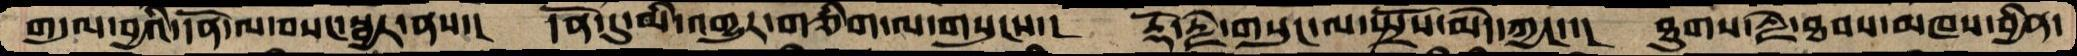གདུལ་བྱའི་དོན་ལ་བསང་སྦྱར་ནས་།  དོན་དུ་མི་འགྱུར་གཅིག་ལ་གསུངས་།  རྡོ་རྗེ་གསུང་ལ་སྤྲོས་མེད་ཀྱང་།  ཐུགས་རྗེ་ཐབས་མཁས་བྱིན་
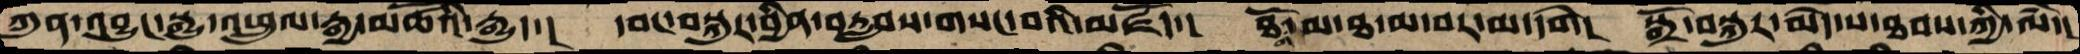ཀུན་འབྱུང་སྒྱུ་འཕྲུལ་རྒྱ་མཚོའི་རྒྱུད་། དབང་བསྐུར་བྱིན་བརླབས་གསང་བའི་མཛོད་། ཐོག་མ་ཐ་མ་བར་མ་དགེ། སྒྲོ་བསྐུར་མེད་པ་ཐབས་ཀྱི་ལཾ་།
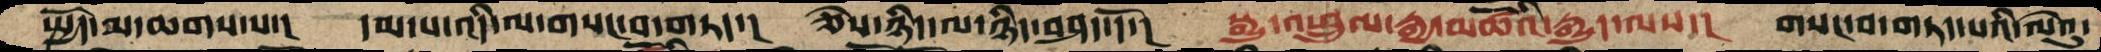སྤྱོད་མ་ཆགས་པ་།  དམ་པ་འདི་ལ་གསང་བ་གཏད་།  ཅེས་ཉིད་ལ་ཉིད་བཤད་དོ་།  སྒྱུ་འཕྲུལ་རྒྱ་མཚོའི་རྒྱུད་ལས་།  གསང་བ་གཏད་པའི་ལེའུ་
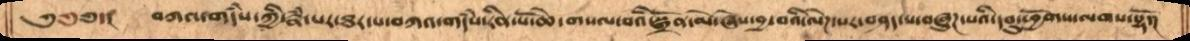༄༅༅་། བཀའ་གདཾས་ཀྱི་རྣཾ་པར་ཐར་པ་བཀའ་གདཾས་རིན་པོ་ཆེ་གསལ་བའི་སྒྲོན་མེ་ཞེས་བྱ་བའི་ལེགས་པར་བཤད་པ་བཞུཌ་པའི་དབུ་ཕྱོགས་ལགས་སྷོ་།
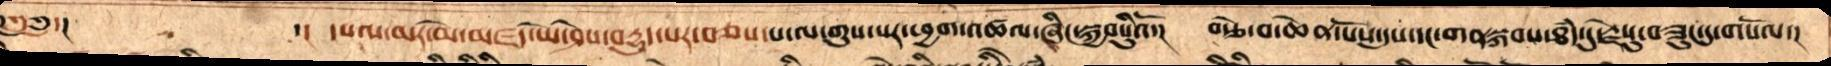༄༅་།  ་།  དཔལ་མར་མེ་མཛད་ཡེ་ཤེས་བདྱུད་པར་བཅས་པ་ལ་གུས་པར་ཕྱག་འཚལ་ཞིང་སྐྱབསིུའོ་། བརྩེ་བ་ཆེན་པོས་དུས་དང་གནསྐབས་ཐཾད་དུ་རྗེསུ་བཟུང་དུ་གསོལ་།
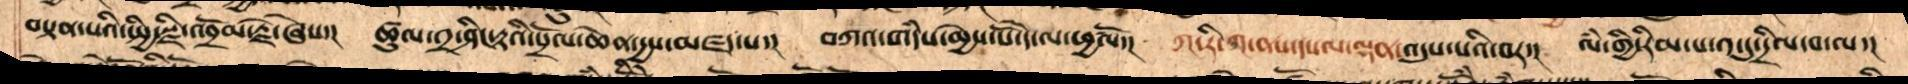བསྟན་པའི་སྤྱི་རྫི་འབྲོམ་རྗེ་ཞེས་། ཚུལ་༢་ཤིང་རྟའི་སྲོལ་ཆེན་དྱས་མཛད་པ་། བཀའ་གདཾས་མྱེས་པོ་དེ་ལ་ཕྱཚལོ་། ཀ་རི་ཀ་ནས་དཔལ་ལྡན་འདུས་པའི་བར་། ལཾ་གྱི་རིམ་པ་༡་ཏུ་དྲིལ་བ་ལ་།
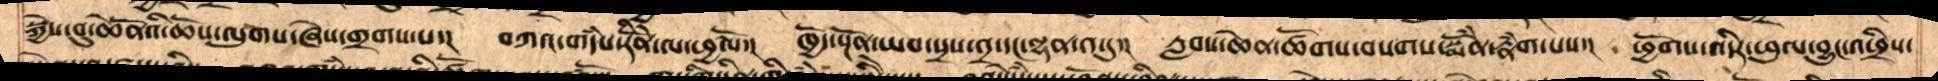སྐྱེས་བུ་ཆེནོའི་ཆོས་ལུགས་ཞེས་གྲགས་པ་། བཀའ་གདཾས་རིོནེ་ལ་ཕྱཚལོ་། ཁྱེད་སྔོན་ཡབ་སྲས་༢་དང་ལྷན་༡་དུ་།  རླབས་ཆེན་ཚོགས་བསགས་སྨོཾན་རྣཾག་པས་།  ཕྱོགས་འདིར་ཕུལ་བྱུང་འཕྲིས་
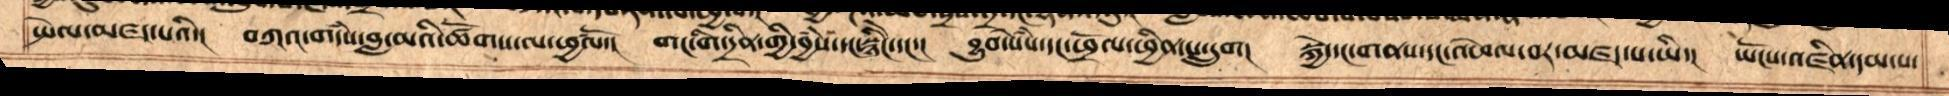སྤེལ་མཛད་པའི་། བཀའ་གདཾས་བླ་མའི་ཚོགས་ལ་ཕྱཚལོ་། གང་གི་དྲིན་གྱི་བྱཾས་དང་སྙིངེ་དང་། བྱང་ཆུབ་སེཾས་དང་ཕྲོལ་ཕྱིན་པ་དྲུག། སྐྱེ་དང་གནས་དང་འཕེལ་བར་མཛད་པ་ཡི་། ཡོངས་འཛིན་དམ་པ་
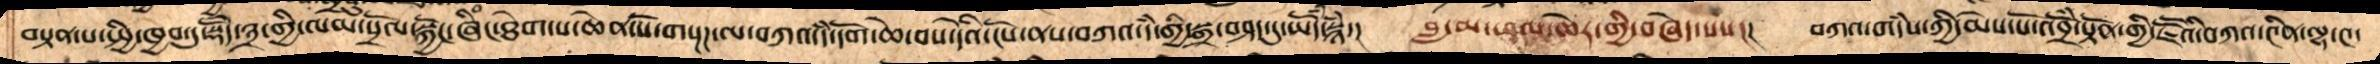བསྟན་པ་སྤྱི་ཁྱབ་དུ་་སྡེོད་༣་གྱི་ལམ་སྲོལ་སྐྱོང་ཞིང་ཐེག་པ་ཆེན་པོ་གསྔཌ་ལ་བཀའ་དཾ་དོག་ཆེ་བས་དེའི་ངོས་ནས་བཀའ་དཾ་གྱི་སྒྲ་བཤད་དུ་ཡོདཾ་སྙཾ་།  བླ་མ་ཕལ་ཆེར་གྱི་བཞེད་པས།།། བཀའ་གདཾས་ཀྱི་མེས་པོ་འབྲོཾ་སྟོན་གྱི་ཇོཽའི་བཀའ་༤ིན་ལྷ་༤་
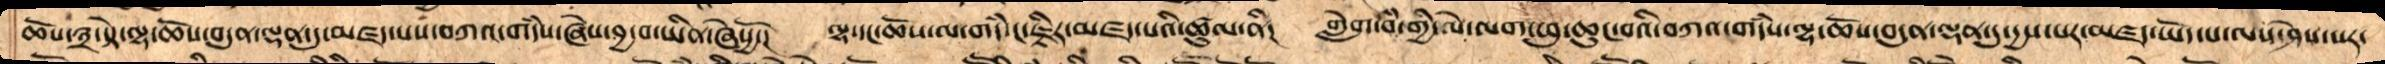ཆོས་༣་སྟེ་ལྷ་ཆོས་བདུན་ལྡན་དུ་མཛད་པས་བཀའ་གདཾས་ཞེས་བྱ་བ་ཡིན་ཞེསྱོོ་། ལྷ་དང་ཆོས་ལ་གདཾ་ང་ཇྟིར་མཛད་པའི་ཚུལ་ནི།  གླེག་བཾ་གྱི་ལེ་ལག་ཕུ་ཆུང་བའི་བཀའ་གདཾས་ལྷ་ཆོས་བདུན་ལྡན་དུ་དྱས་པར་མཛད་ཡོད་པ་ལས་ཤེས་པར་
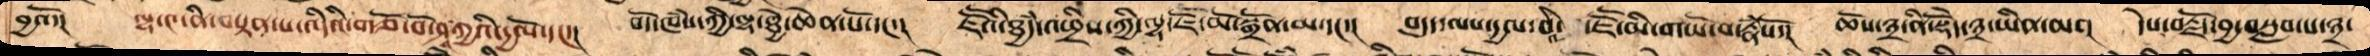བྱའོ་། ལྷ་༤་ནི་བསྟན་པ་འདིའི་གཙོ་བོ་ཤཱཀྱའི་དྱལོ་དང་། བོད་ཁཾས་ཀྱི་ལྷ་ཐྱེ་ཆེན་པོ་དང་། ཇཽའི་ཐྱདྃ་འཕྲིས་ཀྱི་ལྷ་ཇོ་མོ་སྒྲོན་མ་དང་། བདུད་ལས་དྱལ་བའི་ ཇཽ་མི་གཡོ་བ་རྣཾསོ་། ཆོས་༣་ནི་སྡེོད་༣་ཡིན་མ་། དེས་བརྗོད་བྱ་བསླབ་པ་༣་
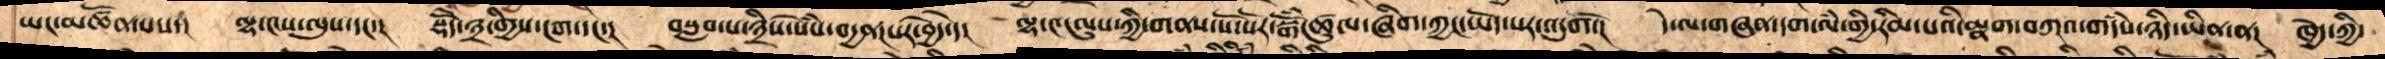ཡང་མཚོན་པས་། ལྷ་༤ས་ལུས་དང་། སྡེོད་༣་གྱིས་ངག་དང་།  བསླབ་པ་༣ིས་སེསཾ་བདྱན།པར་བྱེད་དེ། ལྷ་༤་ལུས་ཀྱི་གནས་སོ་སོར་སྒོཾ་ཚུལ་ཞིག་ཀྱང་ཡོད་པར་འདུགོ་། དེ་ལ་གཞན་དག་ལཾ་གྱི་རིམ་པའི་མྣག་བཀའ་གདྃས་ཉིད་ཡིན་ན། ཁྱེད་ཀྱི་
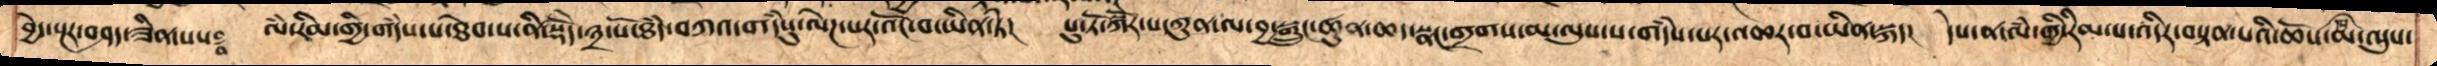བྱེད་སྔར་བཤད་ཟིན་པསཿ  ལཾ་རིམ་གྱི་གདཾས་པ་ཐེབ་པ་ནི་སྡེོད་༣་པོ་ཐཾད་བཀའ་གདཾསུ་ལེཌ་པར་འོང་བ་ཡིན་ཏེ། པུ་ཏོ་སྐོར་པ་ཀུན་ལ་བྱ་སྒྲུང་ཚུན་ཆད་སྣང་གྲགས་མ་ལུས་པ་གདཾས་པར་འཆར་བ་ཡིན་སྐད། དེས་ན་ལཾ་གྱི་རིམ་པ་འདིར་བསྟན་པའི་ཆོས་མ་ལུས་
